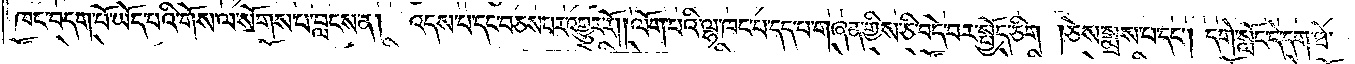ཁང་བདག་པོ་ཡོད་པའི་གོས་ལ་སོགས་པ་བླངས་ན། འདས་པ་དང་བཅས་པར་འགྱུར་རོ། །ལོག་པའི་ལྷ་ཁང་པ་དད་པ་གཞན་གྱིས་ཅི་བདེ་བར་སྤྱོད་ཅིག །ཅེས་སྨྲས་པ་དང༌། དགེ་སློང་དེ་དག་ཐེ་
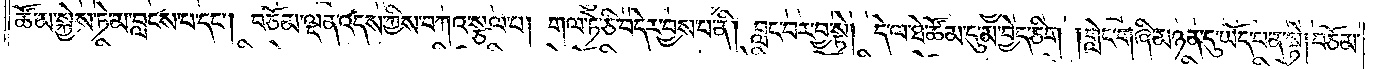ཚོམ་སྐྱེས་ཏེ་མ་བླངས་པ་དང༌། བཅོམ་ལྡན་འདས་ཀྱིས་བཀའ་སྩལ་པ། གལ་ཏེ་ཅི་བདེར་བྱས་པ་ནི། བླང་བར་བྱ་སྟེ། དེ་ལ་ཐེ་ཚོམ་དུ་མ་བྱེད་ཅིག །གླེང་གཞི་མཉན་དུ་ཡོད་པ་ན་སྟེ། བཅོམ་
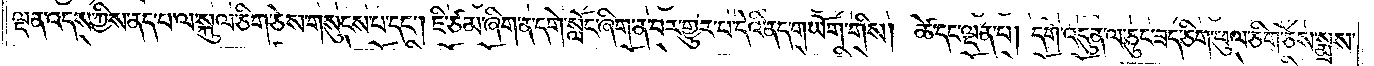ལྡན་འདས་ཀྱིས་ནད་པ་ལ་སྐུལ་ཅིག་ཅེས་གསུངས་པ་དང༌། ཇི་ཙམ་ཞིག་ན་དགེ་སློང་ཞིག་ན་བར་གྱུར་པ་དེའི་ནད་གཡོག་གིས། ཚེ་དང་ལྡན་པ། དགེ་འདུན་ལ་ཅུང་ཟད་ཅིག་ཕུལ་ཅིག་ཅེས་སྨྲས་
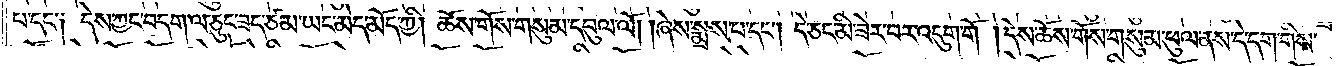པ་དང་༑ དེས་ཀྱང་བདག་ལ་ཅུང་ཟད་ཙམ་ཡང་མེད་མོད་ཀྱི། ཆོས་གོས་གསུམ་དབུལ་ལོ། །ཞེས་སྨྲས་པ་དང༌། དེ་ཅང་མི་ཟེར་བར་འདུག་གོ། དེས་ཆོས་གོས་གསུམ་ཕུལ་ནས་དེ་དག་གིས་
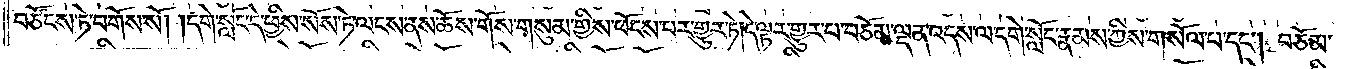བཙོངས་ཏེ་བགོས་སོ། །དགེ་སློང་དེ་ཕྱིས་སོས་ཏེ་ལངས་ནས་ཆོས་གོས་གསུམ་གྱིས་ཕོངས་པར་གྱུར་ཏེ། དེ་ལྟར་གྱུར་པ་བཅོམ་ལྡན་འདས་ལ་དགེ་སློང་རྣམས་ཀྱིས་གསོལ་པ་དང༌། བཅོམ་
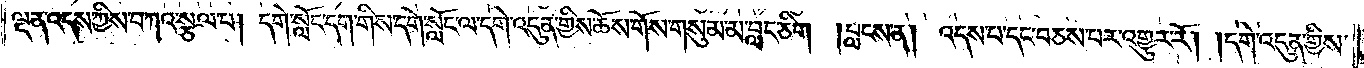ལྡན་འདས་ཀྱིས་བཀའ་སྩལ་པ། དགེ་སློང་དག་གིས་དགེ་སློང་ལ་དགེ་འདུན་གྱིས་ཆོས་གོས་གསུམ་མ་བླང་ཅིག །བླངས་ན། འདས་པ་དང་བཅས་པར་འགྱུར་རོ། །དགེ་འདུན་གྱིས་
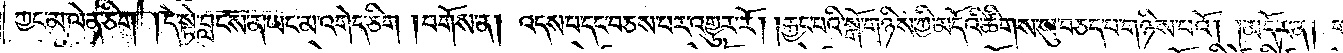ཀྱང་མ་ལེན་ཅིག །དེ་སྟེ་བླངས་ན་ཡང་མ་འགེད་ཅིག །བགོས་ན། འདས་པ་དང་བཅས་པར་འགྱུར་རོ། །རྐྱང་པའི་སྒོ་གཉིས་ཀྱི་མདོའི་ཚིགས་སུ་བཅད་པ་གཉིས་པའོ།    །མདོར་ན།
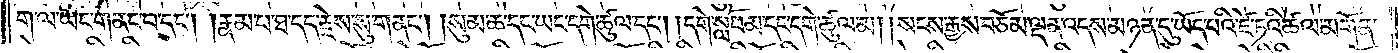ག་ལ་ཡང་གནང་བ་དང༌། །རྣམ་པ་ཐ་དད་རྗེས་སུ་གནང༌། །སུམ་ཆ་དང་ཡང་དགེ་ཚུལ་དང༌། །དགེ་སློབ་མ་དང་དགེ་ཚུལ་མ། །སངས་རྒྱས་བཅོམ་ལྡན་འདས་མཉན་དུ་ཡོད་པའི་ཛེ་ཏའི་ཚལ་མགོན་
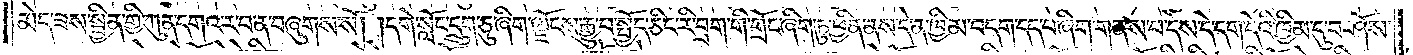མེད་ཟས་སྦྱིན་གྱི་ཀུན་དགའ་ར་བ་ན་བཞུགས་སོ། །དགེ་སློང་དྲུག་ཅུ་ཞིག་ལྗོངས་རྒྱུ་བ་སྤྱོད་ཅིང་རི་བྲག་གི་གྲོང་ཞིག་ཏུ་ཕྱིན་ནས་དེ་ན་ཁྱིམ་བདག་དད་པ་ཞིག་གནས་པ་དེས་དེ་དག་དེའི་ཁྱིམ་དུ་བཤོས་
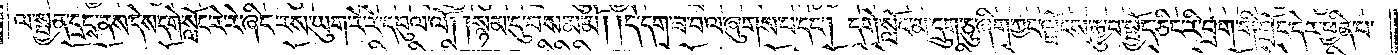ལ་སྤྱན་དྲངས་ནས་དེས་དགེ་སློང་རེ་རེ་ཞིང་རས་ཡུག་རེ་རེ་དབུལ་ལོ། །སྙམ་དུ་བསམ་མོ། །དེ་དག་ཟ་བ་ལ་ཞུགས་པ་དང༌། དགེ་སློང་མ་དྲུག་ཅུ་ཞིག་ཀྱང་ལྗོངས་རྒྱུ་བ་སྤྱོད་ཅིང་རི་བྲག་གི་གྲོང་དེར་ཕྱིན་པ་
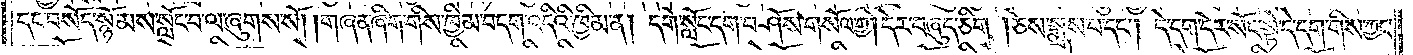དང་བསོད་སྙོམས་སློང་བ་ལ་ཞུགས་སོ། །གཞན་ཞིག་གིས་ཁྱིམ་བདག་འདིའི་ཁྱིམ་ན། དགེ་སློང་དག་བཤོས་གསོལ་གྱི། དེར་བཞུད་ཅིག །ཅེས་སྨྲས་པ་དང༌། དེ་དག་དེར་སོང་སྟེ་དེ་དག་གིས་ཀྱང་
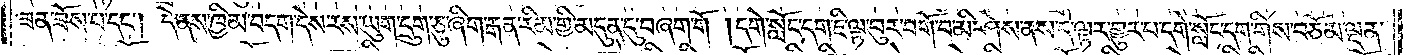ཟན་ཟོས་པ་དང༌། དེ་ནས་ཁྱིམ་བདག་དེས་རས་ཡུག་དྲུག་ཅུ་ཞིག་རྒན་རིམ་གྱི་མདུན་དུ་བཞག་གོ །དགེ་སློང་དག་ཇི་ལྟ་བུར་བགོ་བ་མི་ཤེས་ནས་དེ་ལྟར་གྱུར་པ་དགེ་སློང་དག་གིས་བཅོམ་ལྡན་
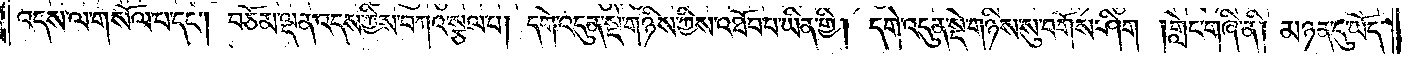འདས་ལ་གསོལ་པ་དང༌། བཅོམ་ལྡན་འདས་ཀྱིས་བཀའ་སྩལ་པ། དགེ་འདུན་སྡེ་གཉིས་ཀྱིས་འཐོབ་པ་ཡིན་གྱི། དགེ་འདུན་སྡེ་གཉིས་སུ་བགོས་ཤིག །གླེང་གཞི་ནི། མཉན་དུ་ཡོད་
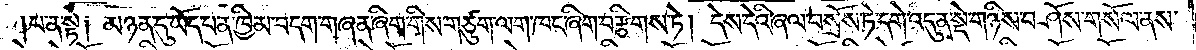པ་ན་སྟེ། མཉན་དུ་ཡོད་པ་ན་ཁྱིམ་བདག་གཞན་ཞིག་གིས་གཙུག་ལག་ཁང་ཞིག་བརྩིགས་ཏེ། དེས་དེའི་ཞལ་བསྲོས་ཏེ་དགེ་འདུན་སྡེ་གཉིས་བཤོས་གསོལ་ནས་
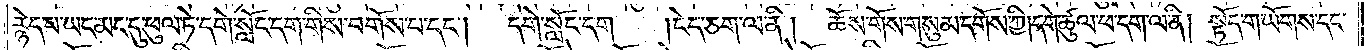རྙེད་པ་ཡང་མང་དུ་ཕུལ་ཏེ་དགེ་སློང་དག་གིས་བགོས་པ་དང༌། དགེ་སློང་དག །ངེད་ཅག་ལ་ནི། ཆོས་གོས་གསུམ་དགོས་ཀྱི། དགེ་ཚུལ་ཕ་དག་ལ་ནི། སྟོད་གཡོགས་དང་
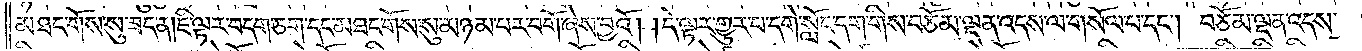མཐང་གོས་སུ་ཟད་ན། ཇི་ལྟར་བདག་ཅག་དང་མཐང་གོས་སུ་མཉམ་པར་བགོ་ཞེས་བྱའོ། །དེ་ལྟར་གྱུར་པ་དགེ་སློང་དག་གིས་བཅོམ་ལྡན་འདས་ལ་གསོལ་པ་དང༌། བཅོམ་ལྡན་འདས་
